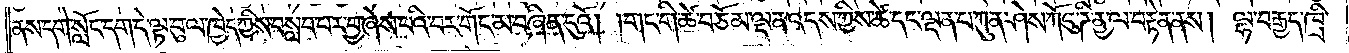ནས་དགེ་སློང་དག་དེ་ལྟ་བུ་ལ་ཁྱེད་ཀྱིས་བསླབ་པར་བྱ་ཞེས་པའི་བར་གོང་མ་བཞིན་དུའོ། །གང་གི་ཚེ་བཅོམ་ལྡན་འདས་ཀྱིས་ཚེ་དང་ལྡན་པ་ཀུན་ཤེས་ཀོའུ་ཌི་ནྱ་ལ་བརྟེན་ནས། ལྷ་བརྒྱད་ཁྲི་
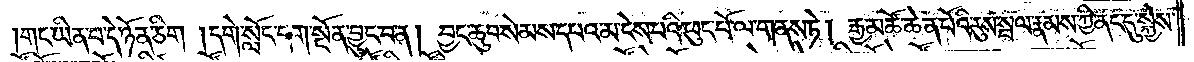།གང་ཡིན་པ་དེ་ཉོན་ཅིག །དགེ་སློང་དག་སྔོན་བྱུང་བ་ན། བྱང་ཆུབ་སེམས་དཔའ་མ་ངེས་པའི་ཕུང་པོ་ལ་གནས་ཏེ། རྒྱ་མཚོ་ཆེན་པོའི་རུས་སྦལ་རྣམས་ཀྱི་ནང་དུ་སྐྱེས་
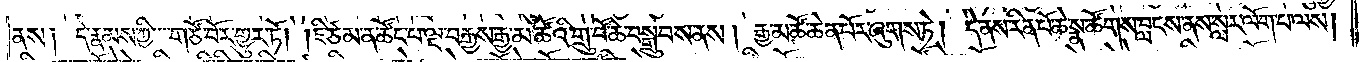ནས༑ དེ་རྣམས་ཀྱི་གཙོ་བོར་གྱུར་ཏོ། །ཇི་ཙམ་ན་ཚོང་པ་ལྔ་བརྒྱས་རྒྱ་མཚོའི་གྲུ་བོ་ཆེ་བསྒྲུབས་ནས། རྒྱ་མཚོ་ཆེན་པོར་ཞུགས་ཏེ། དེ་ནས་རིན་པོ་ཆེ་སྣ་ཚོགས་བླངས་ནས་སླར་ལོག་པ་ལས།
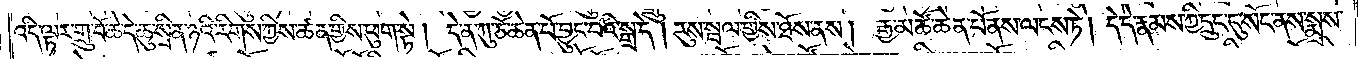འདི་ལྟར་གྲུ་བོ་ཆེ་དེ་ཆུ་སྲིན་ཉའི་རིགས་ཀྱིས་ཚན་གྱིས་ཕུག་སྟེ། དེ་ན་ཀུ་ཅོ་ཆེན་པོ་བྱུང་བའི་སྒྲ་དེ། རུས་སྦལ་གྱིས་ཐོས་ནས། རྒྱ་མཚོ་ཆེན་པོ་ནས་ལངས་ཏེ། དེ་དེ་རྣམས་ཀྱི་དྲུང་དུ་སོང་ནས་སྨྲས་
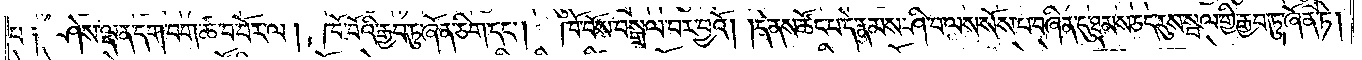པ༑ ཤེས་ལྡན་དག་བག་ཚ་བ་བོར་ལ། ཁོ་བོའི་རྒྱབ་ཏུ་ཞོན་ཅིག་དང༌། ཁོ་བོས་བསྒྲལ་བར་བྱའོ། །དེ་ནས་ཚོང་པ་དེ་རྣམས་ཤི་བ་ལས་སོས་པ་བཞིན་དུ་ཐམས་ཅད་རུས་སྦལ་གྱི་རྒྱབ་ཏུ་ཞོན་ཏེ།
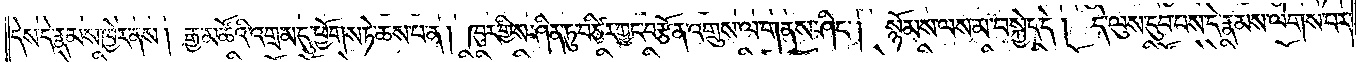དེས་དེ་རྣམས་ཁྱེར་ནས། རྒྱ་མཚོའི་འགྲམ་དུ་ཕྱོགས་ཏེ་ཆས་པ་ན། ཁུར་གྱིས་ཤིན་ཏུ་བཙིར་ཀྱང་བརྩོན་འགྲུས་ལ་གནས་ཤིང༌། སྙོམས་ལས་མ་བསྐྱེད་དེ། དེ་ལུས་དུབ་པས་དེ་རྣམས་ལེགས་པར་
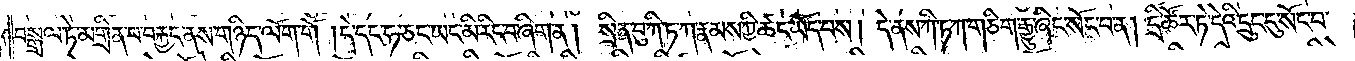བསྒྲལ་ཏེ་མགྲིན་པ་བརྐྱང་ནས་གཉིད་ལོག་གོ །དེ་དང་ཧ་ཅང་ཡང་མི་རིང་བ་ཞིག་ན། སྲིན་བུ་ཀི་ཏ་ཀ་རྣམས་ཀྱི་ཚང་ཡོད་པས། དེ་ནས་ཀི་ཏ་ཀ་གཅིག་རྒྱུ་ཞིང་སོང་བ་ན། དྲི་ཚོར་ཏེ་དེའི་དྲུང་དུ་སོང་བ་
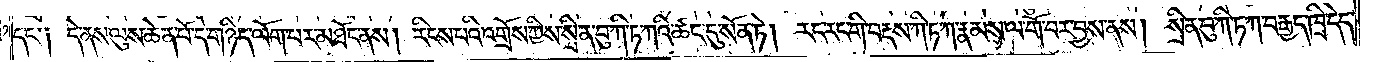དང༌། དེ་ནས་ལུས་ཆེན་པོ་དེ་གཉིད་ལོག་པར་མཐོང་ནས། རིངས་པའི་འགྲོས་ཀྱིས་སྲིན་བུ་ཀི་ཏ་ཀའི་ཚང་དུ་སོན་ཏེ། རང་རང་གི་བརྡས་ཀི་ཏ་ཀ་རྣམས་ལ་གོ་བར་བྱས་ནས། སྲིན་བུ་ཀི་ཏ་ཀ་བརྒྱད་ཁྲི་དེད་
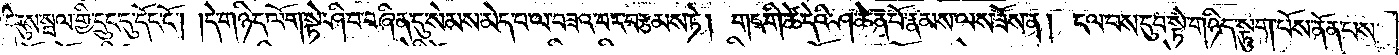དེ་རུས་སྦལ་གྱི་དྲུང་དུ་དོང་ངོ༌། །དེ་གཉིད་ལོག་སྟེ་ཤི་བ་བཞིན་དུ་སེམས་མེད་པ་ལ་བཟའ་བར་བརྩམས་ཏེ། གང་གི་ཚེ་དེའི་ཤ་ཆེན་པོ་རྣམས་ལས་ཟོས་ན། ངལ་བས་དུབ་སྟེ་གཉིད་སྟུག་པོས་ནོན་པས་
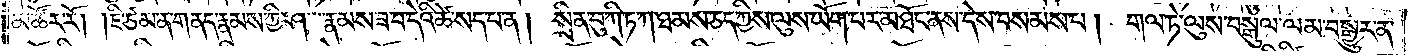མ་ཚོར་རོ། །ཇི་ཙམ་ན་གནད་རྣམས་ཀྱི་ཤ་རྣམས་ཟ་བ་དེའི་ཚེ་སད་པ་ན། སྲིན་བུ་ཀི་ཏ་ཀ་ཐམས་ཅད་ཀྱིས་ལུས་ཡོག་པར་མཐོང་ནས་དེས་བསམས་པ། གལ་ཏེ་ལུས་བསྒུལ་ལམ་བསྒྱུར་ན་
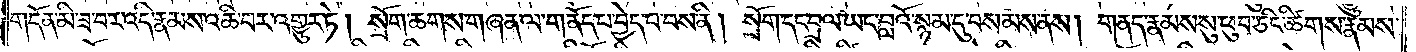གདོན་མི་ཟ་བར་འདི་རྣམས་འཆི་བར་འགྱུར་ཏེ། སྲོག་ཆགས་གཞན་ལ་གནོད་པ་བྱེད་པ་བས་ནི། སྲོག་དང་བྲལ་ཡང་བླའོ་སྙམ་དུ་བསམས་ནས། གནད་རྣམས་སུ་ཕུབ་ཅིང་ཚིགས་རྣམས་
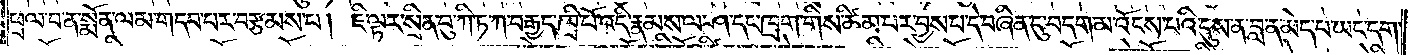ཕྲལ་བ་ན་སྨོན་ལམ་གདབ་པར་བརྩམས་པ། ཇི་ལྟར་སྲིན་བུ་ཀི་ཏ་ཀ་བརྒྱད་ཁྲི་པོ་འདི་རྣམས་ལ་ཤ་དང་ཁྲག་གིས་ཚིམ་པར་བྱས་པ་དེ་བཞིན་དུ་བདག་མ་འོངས་པའི་དུས་ན་བླ་ན་མེད་པ་ཡང་དག་
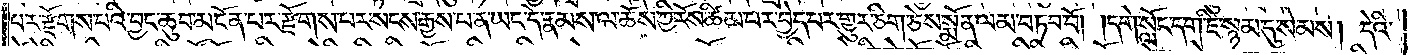པར་རྫོགས་པའི་བྱང་ཆུབ་མངོན་པར་རྫོགས་པར་སངས་རྒྱས་པ་ན་ཡང་དེ་རྣམས་ལ་ཆོས་ཀྱི་རོས་ཚིམ་པར་བྱེད་པར་གྱུར་ཅིག་ཅེས་སྨོན་ལམ་བཏབ་བོ། །དགེ་སློང་དག་ཇི་སྙམ་དུ་སེམས། དེའི་
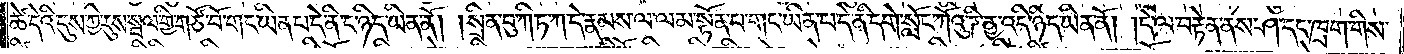ཚེ་དེའི་དུས་ཀྱི་རུས་སྦལ་གྱི་གཙོ་བོ་གང་ཡིན་པ་དེ་ནི་ང་ཉིད་ཡིན་ནོ། །སྲིན་བུ་ཀི་ཏ་ཀ་དེ་རྣམས་ལ་ལམ་སྟོན་པ་གང་ཡིན་པ་དེ་ནི་དགེ་སློང་ཀོའུ་ཌི་ནྱ་འདི་ཉིད་ཡིན་ནོ། །དེ་ལ་བརྟེན་ནས་ཤ་དང་ཁྲག་གིས་
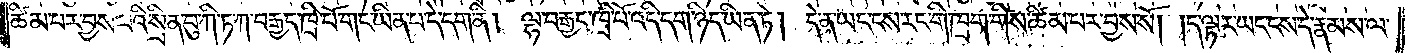ཚིམ་པར་བྱས་པའི་སྲིན་བུ་ཀི་ཏ་ཀ་བརྒྱད་ཁྲི་པོ་གང་ཡིན་པ་དེ་དག་ནི། ལྷ་བརྒྱད་ཁྲི་པོ་འདི་དག་ཉིད་ཡིན་ཏེ། དེ་ན་ཡང་ངས་རང་གི་ཁྲག་གིས་ཚིམ་པར་བྱས་སོ། །ད་ལྟར་ཡང་ངས་དེ་རྣམས་ལ་
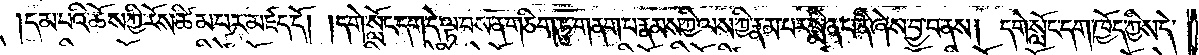།དམ་པའི་ཆོས་ཀྱི་རོས་ཚིམ་པར་མཛད་དོ། །དགེ་སློང་དག་དེ་ལྟ་བས་ན་གཅིག་ཏུ་གནག་པ་རྣམས་ཀྱི་ལས་ཀྱི་རྣམ་པར་སྨིན་པ་ནི་ཞེས་བྱ་བ་ནས། དགེ་སློང་དག་ཁྱོད་ཀྱིས་དེ་
